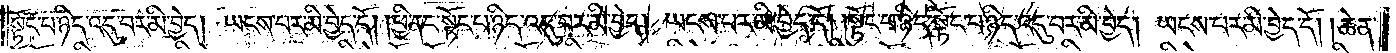སྟོང་པ་ཉིད་འདུ་བར་མི་བྱེད། ཡངས་པར་མི་བྱེད་དོ། །ཕྱི་ནང་སྟོང་པ་ཉིད་འདུ་བར་མི་བྱེད། ཡངས་པར་མི་བྱེད་དོ། །སྟོང་པ་ཉིད་སྟོང་པ་ཉིད་འདུ་བར་མི་བྱེད། ཡངས་པར་མི་བྱེད་དོ། །ཆེན་
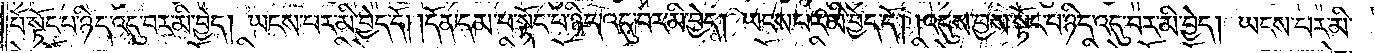པོ་སྟོང་པ་ཉིད་འདུ་བར་མི་བྱེད། ཡངས་པར་མི་བྱེད་དོ། །དོན་དམ་པ་སྟོང་པ་ཉིད་འདུ་བར་མི་བྱེད། ཡངས་པར་མི་བྱེད་དོ། །འདུས་བྱས་སྟོང་པ་ཉིད་འདུ་བར་མི་བྱེད། ཡངས་པར་མི་
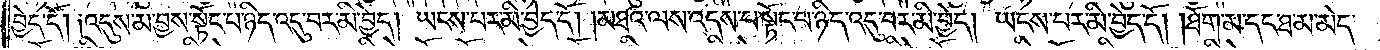བྱེད་དོ། །འདུས་མ་བྱས་སྟོང་པ་ཉིད་འདུ་བར་མི་བྱེད། ཡངས་པར་མི་བྱེད་དོ། །མཐའ་ལས་འདས་པ་སྟོང་པ་ཉིད་འདུ་བར་མི་བྱེད། ཡངས་པར་མི་བྱེད་དོ། །ཐོག་མ་དང་ཐ་མ་མེད་
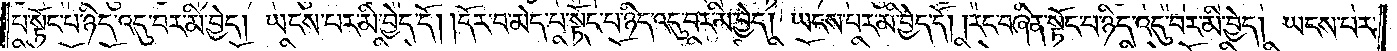པ་སྟོང་པ་ཉིད་འདུ་བར་མི་བྱེད། ཡངས་པར་མི་བྱེད་དོ། །དོར་བ་མེད་པ་སྟོང་པ་ཉིད་འདུ་བར་མི་བྱེད། ཡངས་པར་མི་བྱེད་དོ། །རང་བཞིན་སྟོང་པ་ཉིད་འདུ་བར་མི་བྱེད། ཡངས་པར་
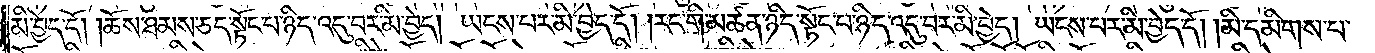མི་བྱེད་དོ། །ཆོས་ཐམས་ཅད་སྟོང་པ་ཉིད་འདུ་བར་མི་བྱེད། ཡངས་པར་མི་བྱེད་དོ། །རང་གི་མཚན་ཉིད་སྟོང་པ་ཉིད་འདུ་བར་མི་བྱེད། ཡངས་པར་མི་བྱེད་དོ། །མི་དམིགས་པ་
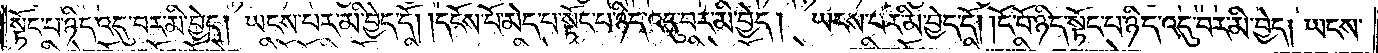སྟོང་པ་ཉིད་འདུ་བར་མི་བྱེད། ཡངས་པར་མི་བྱེད་དོ། །དངོས་པོ་མེད་པ་སྟོང་པ་ཉིད་འདུ་བར་མི་བྱེད། ཡངས་པར་མི་བྱེད་དོ། །ངོ་བོ་ཉིད་སྟོང་པ་ཉིད་འདུ་བར་མི་བྱེད། ཡངས་
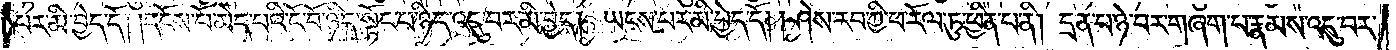པར་མི་བྱེད་དོ། །དངོས་པོ་མེད་པའི་ངོ་བོ་ཉིད་སྟོང་པ་ཉིད་འདུ་བར་མི་བྱེད། ཡངས་པར་མི་བྱེད་དོ། །ཤེས་རབ་ཀྱི་ཕ་རོལ་ཏུ་ཕྱིན་པ་ནི། དྲན་པ་ཉེ་བར་གཞག་པ་རྣམས་འདུ་བར་
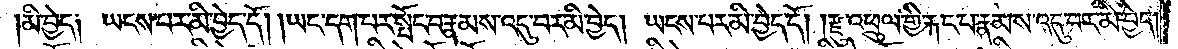མི་བྱེད༑ ཡངས་པར་མི་བྱེད་དོ། །ཡང་དག་པར་སྤོང་བ་རྣམས་འདུ་བར་མི་བྱེད། ཡངས་པར་མི་བྱེད་དོ། །རྫུ་འཕྲུལ་གྱི་རྐང་པ་རྣམས་འདུ་བར་མི་བྱེད།
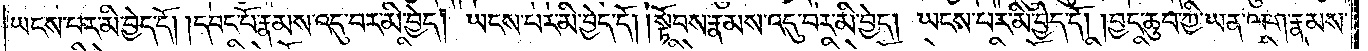ཡངས་པར་མི་བྱེད་དོ། །དབང་པོ་རྣམས་འདུ་བར་མི་བྱེད། ཡངས་པར་མི་བྱེད་དོ། །སྟོབས་རྣམས་འདུ་བར་མི་བྱེད། ཡངས་པར་མི་བྱེད་དོ། །བྱང་ཆུབ་ཀྱི་ཡན་ལག་རྣམས་
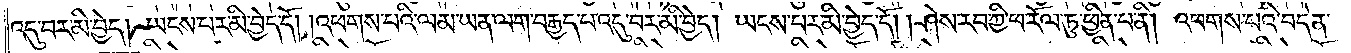འདུ་བར་མི་བྱེད། ཡངས་པར་མི་བྱེད་དོ། །འཕགས་པའི་ལམ་ཡན་ལག་བརྒྱད་པ་འདུ་བར་མི་བྱེད། ཡངས་པར་མི་བྱེད་དོ། །ཤེས་རབ་ཀྱི་ཕ་རོལ་ཏུ་ཕྱིན་པ་ནི། འཕགས་པའི་བདེན་
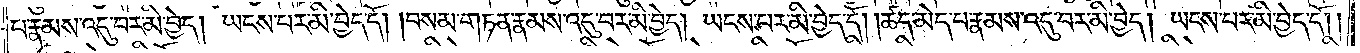པ་རྣམས་འདུ་བར་མི་བྱེད། ཡངས་པར་མི་བྱེད་དོ། །བསམ་གཏན་རྣམས་འདུ་བར་མི་བྱེད། ཡངས་པར་མི་བྱེད་དོ། །ཚད་མེད་པ་རྣམས་འདུ་བར་མི་བྱེད། ཡངས་པར་མི་བྱེད་དོ། །
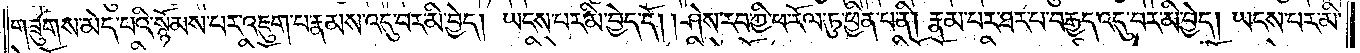གཟུགས་མེད་པའི་སྙོམས་པར་འཇུག་པ་རྣམས་འདུ་བར་མི་བྱེད། ཡངས་པར་མི་བྱེད་དོ། །ཤེས་རབ་ཀྱི་ཕ་རོལ་ཏུ་ཕྱིན་པ་ནི། རྣམ་པར་ཐར་པ་བརྒྱད་འདུ་བར་མི་བྱེད། ཡངས་པར་མི་
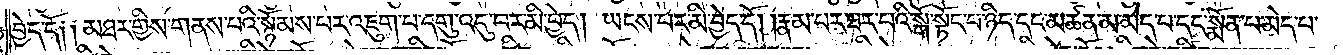བྱེད་དོ༑ ༑མཐར་གྱིས་གནས་པའི་སྙོམས་པར་འཇུག་པ་དགུ་འདུ་བར་མི་བྱེད། ཡངས་པར་མི་བྱེད་དོ། །རྣམ་པར་ཐར་པའི་སྒོ་སྟོང་པ་ཉིད་དང་མཚན་མ་མེད་པ་དང་སྨོན་པ་མེད་པ་
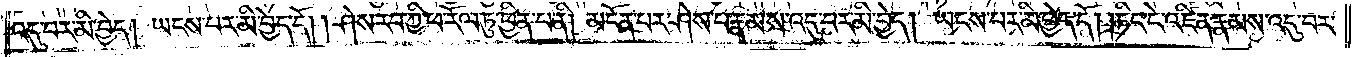འདུ་བར་མི་བྱེད། ཡངས་པར་མི་བྱེད་དོ། །ཤེས་རབ་ཀྱི་ཕ་རོལ་ཏུ་ཕྱིན་པ་ནི། མངོན་པར་ཤེས་པ་རྣམས་འདུ་བར་མི་བྱེད། ཡངས་པར་མི་བྱེད་དོ། །ཏིང་ངེ་འཛིན་རྣམས་འདུ་བར་
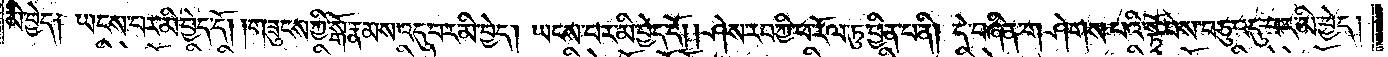མི་བྱེད༑ ཡངས་པར་མི་བྱེད་དོ། །གཟུངས་ཀྱི་སྒོ་རྣམས་འདུ་བར་མི་བྱེད། ཡངས་པར་མི་བྱེད་དོ། །ཤེས་རབ་ཀྱི་ཕ་རོལ་ཏུ་ཕྱིན་པ་ནི། དེ་བཞིན་གཤེགས་པའི་སྟོབས་བཅུ་འདུ་བར་མི་བྱེད།
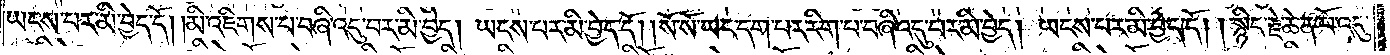ཡངས་པར་མི་བྱེད་དོ། །མི་འཇིགས་པ་བཞི་འདུ་བར་མི་བྱེད། ཡངས་པར་མི་བྱེད་དོ། །སོ་སོ་ཡང་དག་པར་རིག་པ་བཞི་འདུ་བར་མི་བྱེད། ཡངས་པར་མི་བྱེད་དོ། །སྙིང་རྗེ་ཆེན་པོ་འདུ་
